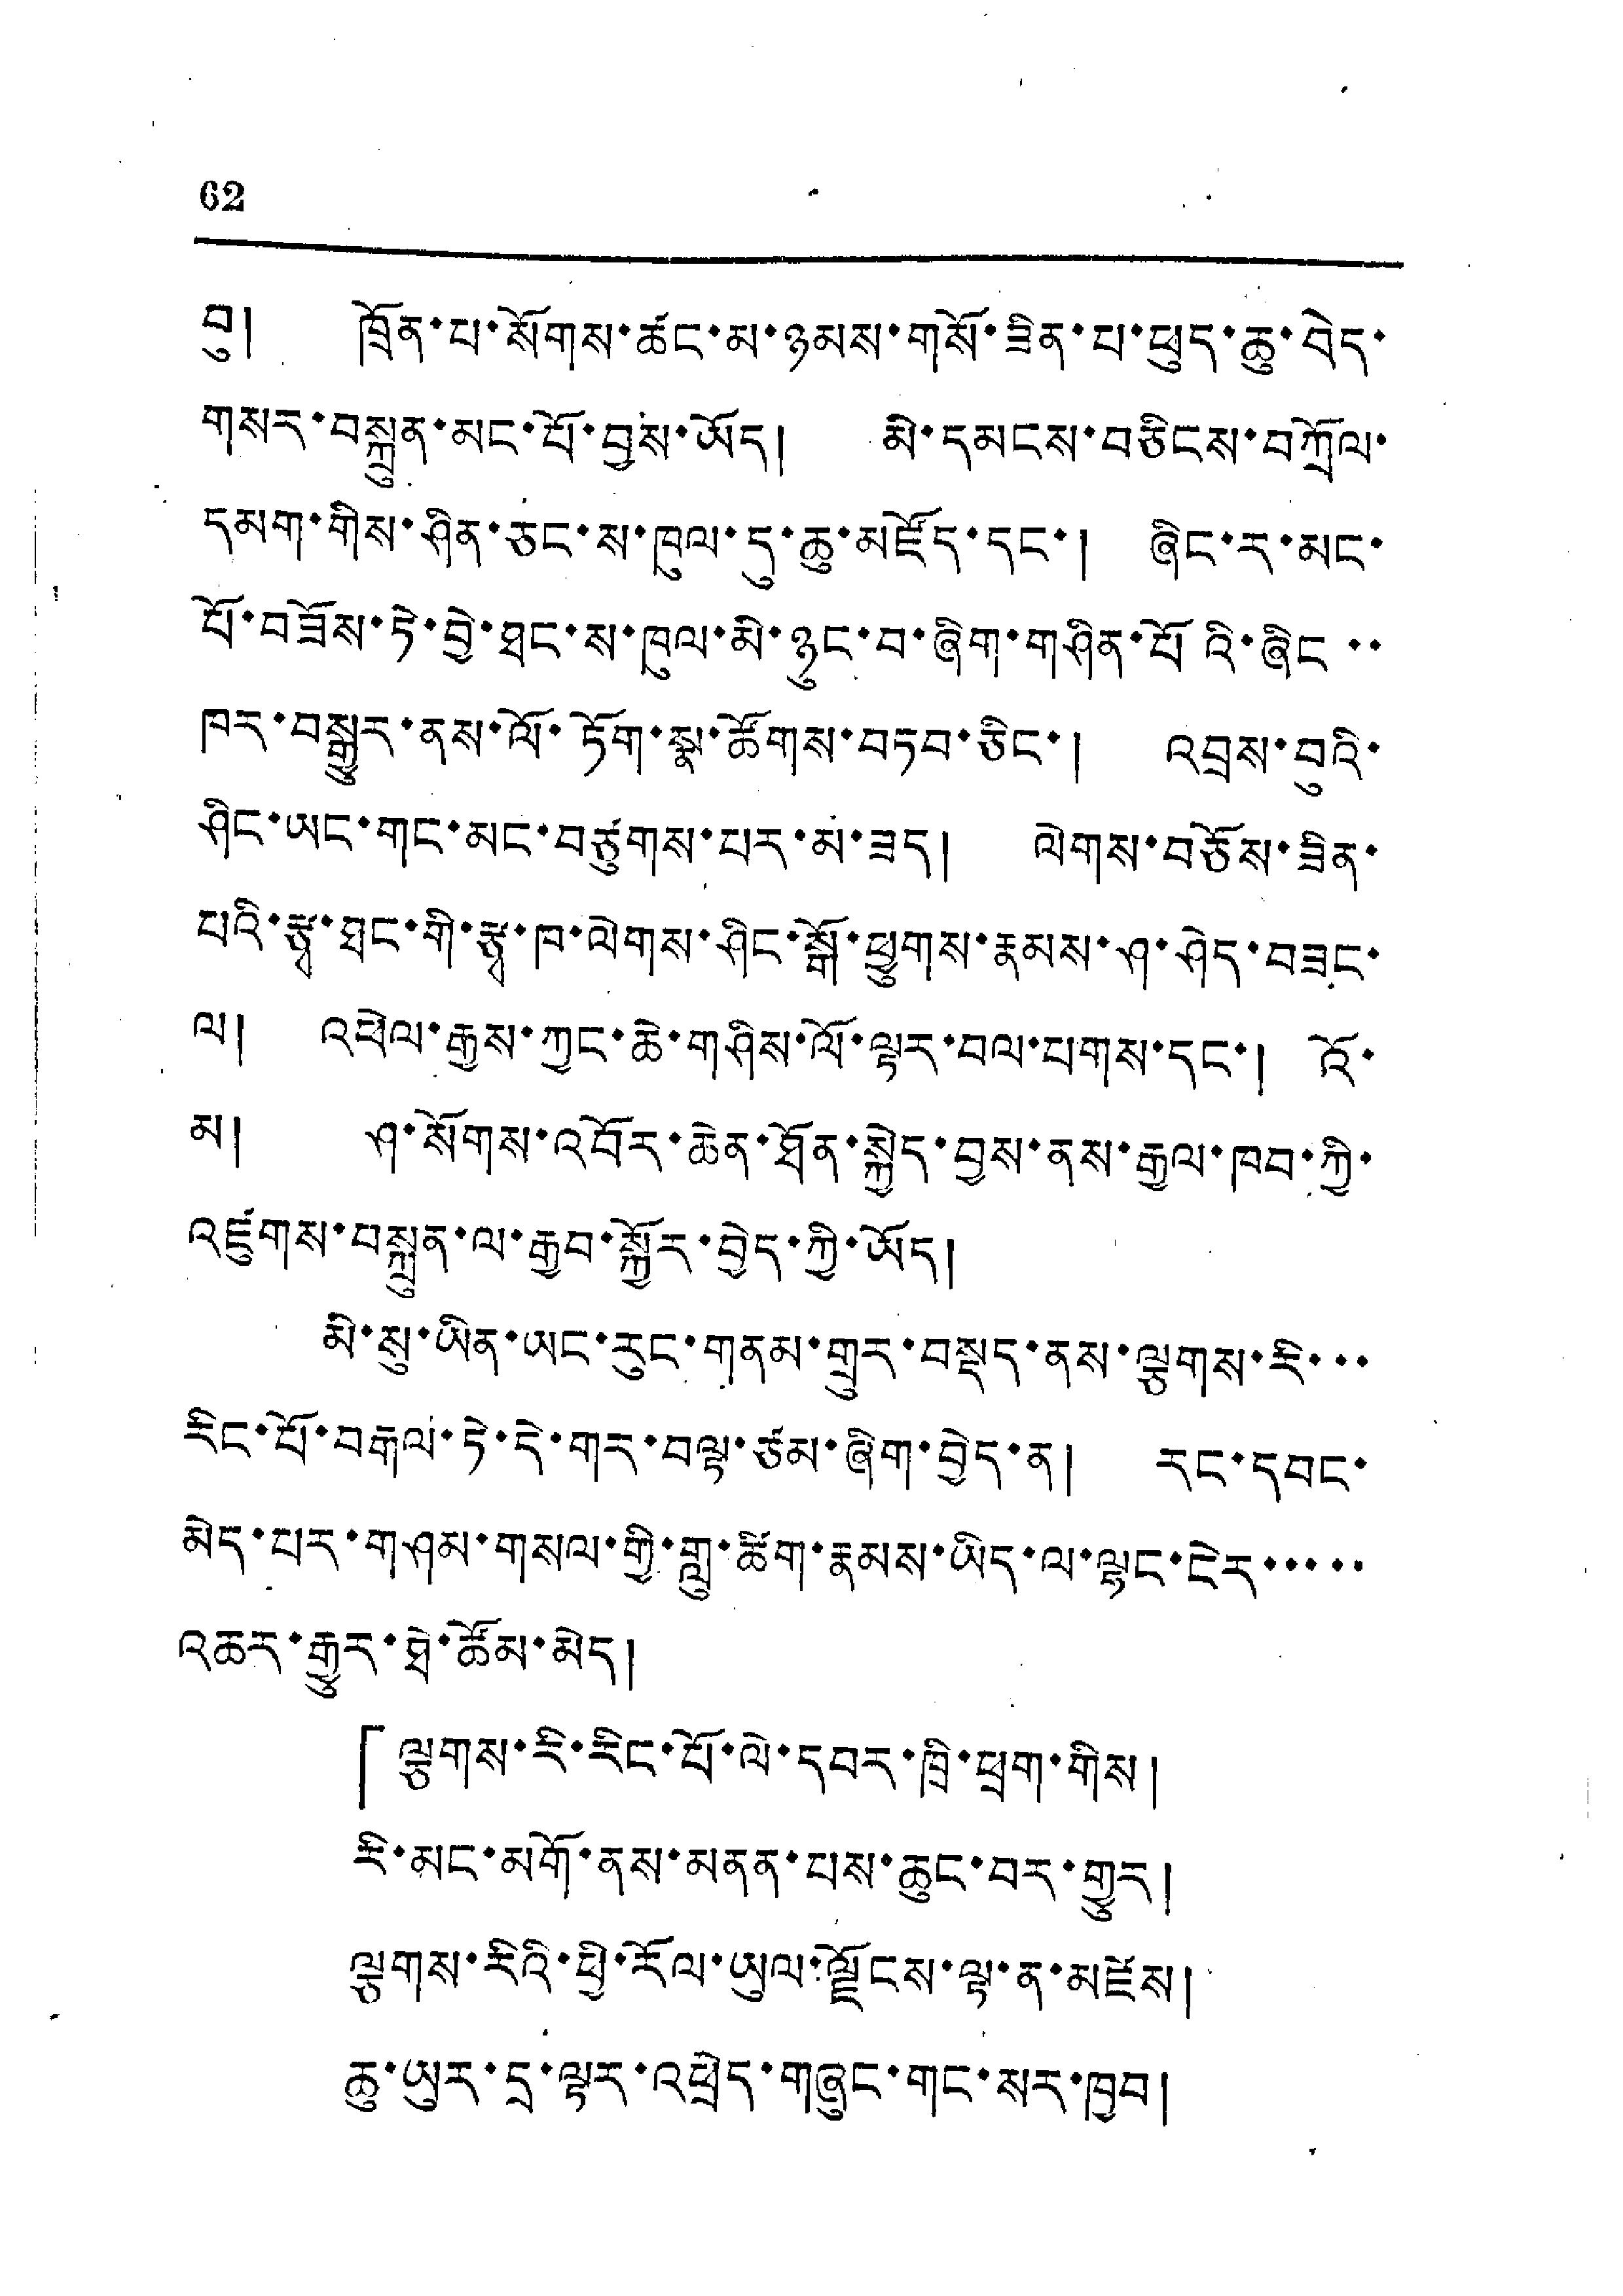62
བུ། ཁྲོན་པ་སོགས་ཚང་མ་ཉམས་གསོ་ཟིན་པ་ཕུད་ཆུ་བེད་
གསར་བསྐྲུན་མང་པོ་བྱས་ཡོད། མི་དམངས་བཅིངས་བཀྲོལ་
དམག་གིས་ཤིན་ཅང་ས་ཁུལ་དུ་ཆུ་མཛོད་དང་། ཞིང་ར་མང་
པོ་བཟོས་ཏེ་བྱེ་ཐང་ས་ཁུལ་མི་ཉུང་བ་ཞིག་གཤིན་པོའི་ཞིང་་
ཁར་བསྒྱུར་ནས་ལོ་ཏོག་སྣ་ཚོགས་བཏབ་ཅིང་། འབྲས་བུའི་
ཤིང་ཡང་གང་མང་བཙུགས་པར་མ་ཟད། ལེགས་བཅོས་ཟིན་
པའི་རྩྭ་ཐང་གི་རྩྭ་ཁ་ལེགས་ཤིང་སྒོ་ཕྱུགས་རྣམས་ཤ་ཤེད་བཟང་
ལ། འཕེལ་རྒྱས་ཀྱང་ཆེ་གཤིས་ལོ་ལྟར་བལ་པགས་དང་། འོ་
མ། ཤ་སོགས་འབོར་ཆེན་ཐོན་སྐྱེད་བྱས་ནས་རྒྱལ་ཁབ་ཀྱི་
འཛུགས་བསྐྲུན་ལ་རྒྱབ་སྐྱོར་བྱེད་ཀྱི་ཡོད།
མི་སུ་ཡིན་ཡང་རུང་གནམ་གྲུར་བསྡད་ནས་ལྕགས་རི་་་
རིང་པོ་བརྒལ་ཏེ་དེ་གར་བལྟ་ཙམ་ཞིག་བྱེད་ན། རང་དབང་
མེད་པར་གཤམ་གསལ་གྱི་གླུ་ཚིག་རྣམས་ཡིད་ལ་ལྷང་ངེར་་་་་་
འཆར་རྒྱུར་ཐེ་ཚོམ་མེད།
「ལྕགས་རི་རིང་པོ་ལེ་དབར་ཁྲི་ཕྲག་གིས།
རི་མང་མགོ་ནས་མནན་པས་ཆུང་བར་གྱུར།
ལྕགས་རིའི་ཕྱི་རོལ་ཡུལ་ལྗོངས་ལྟ་ན་མཛེས།
ཆུ་ཡུར་དྲ་ལྟར་འཕྲེད་གཞུང་གང་སར་ཁྱབ།
